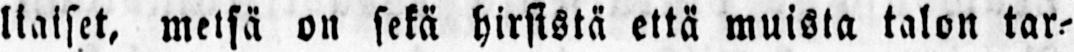liaiset, metsä on sekä hirsistä että muista talon tar-
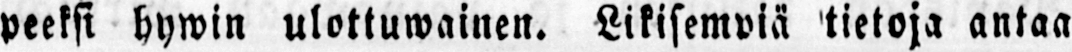peeksi hywin ulottuwainen. Likisempiä tietoja antaa
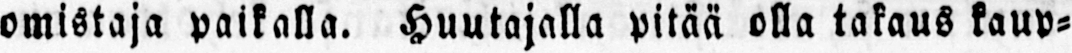omistaja paikalla. Huutajalla pitää olla takaus kaup-
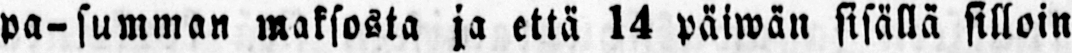pa-summan maksosta ja että 14 päiwän sisällä silloin
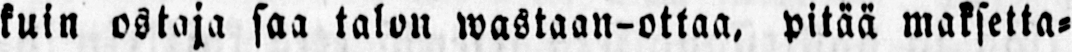kuin ostaja saa talon wastaan-ottaa, pitää maksetta-
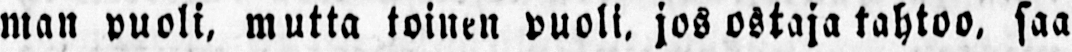man puoli, mutta toinen puoli, jos ostaja tahtoo, saa
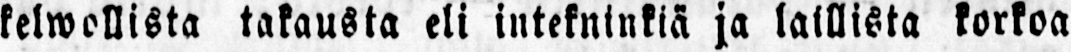kelwollista takausta eli intekninkiä ja laillista korkoa
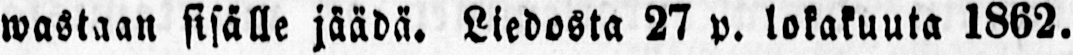wastaan sisälle jäädä. Liedosta 27 p. lokakuuta 1862.
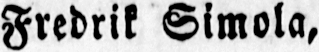Fredrik Simola,
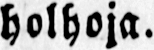holhoja.
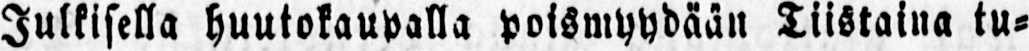Julkisella huutokaupalla poismyydään Tiistaina tu-
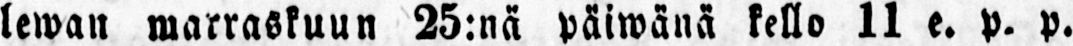lewan marraskuun 25:nä päiwänä kello 11 e. p. p.
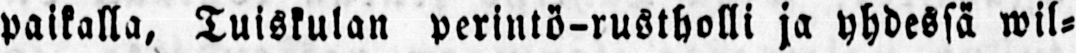paikalla, Tuiskulan perintö-rustholli ja yhdessä wil-
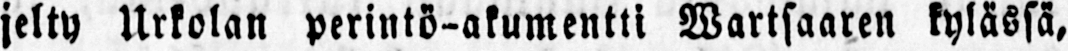jelty Urkolan perintö-akumentti Wartsaaren kylässä,
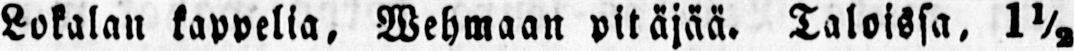Lokalan kappelia, Wehmaan pitäjää. Taloissa, 1½
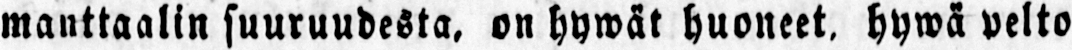manttaalin suuruudesta, on hywät huoneet, hywä pelto
